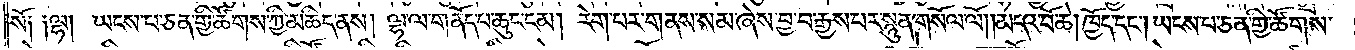སོ༑ ༑ལྷ། ཡངས་པ་ཅན་གྱི་ཚོགས་ཀྱི་མཆིད་ནས། ལྷ་ལ་གནོད་པ་ཆུང་ངམ། རེག་པར་གནས་སམ་ཞེས་བྱ་བ་རྒྱས་པར་སྙུན་གསོལ་ལོ། །མདའ་བོ་ཆེ། ཁྱོད་དང༌། ཡངས་པ་ཅན་གྱི་ཚོགས་
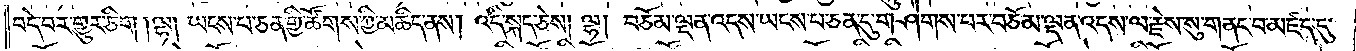བདེ་བར་གྱུར་ཅིག །ལྷ། ཡངས་པ་ཅན་གྱི་ཚོགས་ཀྱི་མཆིད་ནས། འདི་སྐད་ཅེས། ལྷ། བཅོམ་ལྡན་འདས་ཡངས་པ་ཅན་དུ་གཤེགས་པར་བཅོམ་ལྡན་འདས་ལ་རྗེས་སུ་གནང་བ་མཛད་དུ་
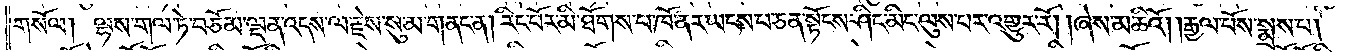གསོལ། ལྷས་གལ་ཏེ་བཅོམ་ལྡན་འདས་ལ་རྗེས་སུ་མ་གནང་ན། རིང་པོར་མི་ཐོགས་པ་ཁོ་ནར་ཡངས་པ་ཅན་སྟོངས་ཤིང་མིང་ལུས་པར་འགྱུར་རོ། །ཞེས་མཆིའོ། །རྒྱལ་པོས་སྨྲས་པ།
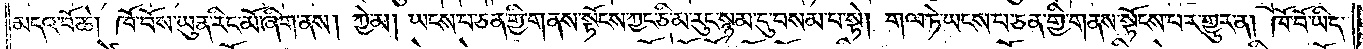མདའ་བོ་ཆེ། ཁོ་བོས་ཡུན་རིང་མོ་ཞིག་ནས། ཀྱེ་མ། ཡངས་པ་ཅན་གྱི་གནས་སྟོངས་ཀྱང་ཅི་མ་རུང་སྙམ་དུ་བསམ་པ་སྟེ། གལ་ཏེ་ཡངས་པ་ཅན་གྱི་གནས་སྟོངས་པར་གྱུར་ན། ཁོ་བོ་ཡིད་
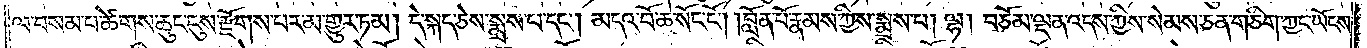ལ་བསམ་པ་ཚེགས་ཆུང་ངུས་རྫོགས་པར་མ་གྱུར་ཏམ། དེ་སྐད་ཅེས་སྨྲས་པ་དང༌། མདའ་བོ་ཆེ་སོང་ངོ༌། །བློན་པོ་རྣམས་ཀྱིས་སྨྲས་པ། ལྷ། བཅོམ་ལྡན་འདས་ཀྱིས་སེམས་ཅན་གཅིག་ཀྱང་ཡངས་
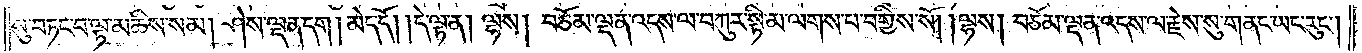སུ་བཏང་བ་ལྟ་མཆིས་སམ། ཤེས་ལྡན་དག། མེད་དོ། །དེ་ལྟ་ན། ལྷས། བཅོམ་ལྡན་འདས་ལ་བཀུར་སྟི་མ་ལགས་པ་བགྱིས་སོ། །ལྷས། བཅོམ་ལྡན་འདས་ལ་རྗེས་སུ་གནང་ཡང་རུང༌།
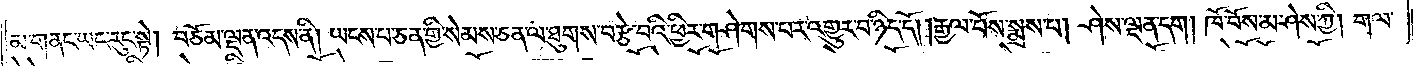མ་གནང་ཡང་རུང་སྟེ། བཅོམ་ལྡན་འདས་ནི། ཡངས་པ་ཅན་གྱི་སེམས་ཅན་ལ་ཐུགས་བརྩེ་བའི་ཕྱིར་གཤེགས་པར་འགྱུར་བ་ཉིད་དོ། །རྒྱལ་པོས་སྨྲས་པ། ཤེས་ལྡན་དག། ཁོ་བོས་མ་ཤེས་ཀྱི། གལ་
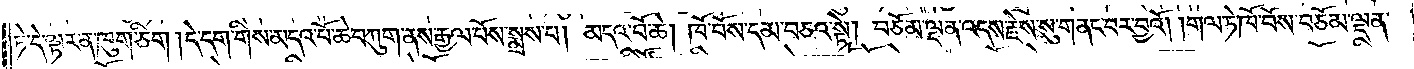ཏེ་དེ་ལྟར་ན་ཁུག་ཅིག །དེ་དག་གིས་མདའ་བོ་ཆེ་བཀུག་ནས་རྒྱལ་པོ་སྨྲས་པ། མདའ་བོ་ཆེ། ཁོ་བོས་དམ་བཅའ་སྟེ། བཅོམ་ལྡན་འདས་རྗེས་སུ་གནང་བར་བྱའོ། །གལ་ཏེ་ཁོ་བོས་བཅོམ་ལྡན་
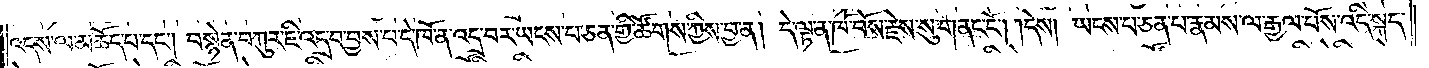འདས་ལ་མཆོད་པ་དང༌། བསྙེན་བཀུར་ཇི་འདྲ་བ་བྱས་པ་དེ་ཁོ་ན་འདྲ་བར་ཡངས་པ་ཅན་གྱི་ཚོགས་ཀྱི་བྱ་ན། དེ་ལྟ་ན་ཁོ་བོས་རྗེས་སུ་གནང་ངོ༌། །དེས། ཡངས་པ་ཅན་རྣམས་ལ་རྒྱལ་པོས་འདི་སྐད་
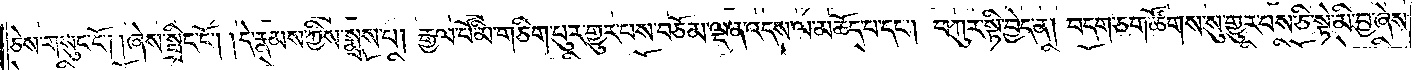ཅེས་གསུང་ངོ༌། །ཞེས་སྤྲིང་ངོ༌། །དེ་རྣམས་ཀྱིས་སྨྲས་པ། རྒྱལ་པོ་མི་གཅིག་པུར་གྱུར་པས་བཅོམ་ལྡན་འདས་ལ་མཆོད་པ་དང༌། བཀུར་སྟི་བྱེད་ན། བདག་ཅག་ཚོགས་སུ་གྱུར་པས་ཅི་སྟེ་མི་བྱ་ཞེས་
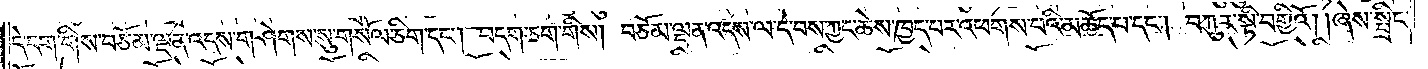དེ་དག་གིས་བཅོམ་ལྡན་འདས་གཤེགས་སུ་གསོལ་ཅིག་དང༌། བདག་ཅག་གིས། བཅོམ་ལྡན་འདས་ལ་དེ་བས་ཀྱང་ཆེས་ཁྱད་པར་འཕགས་པའི་མཆོད་པ་དང༌། བཀུར་སྟི་བགྱིའོ། །ཞེས་སྤྲིང་
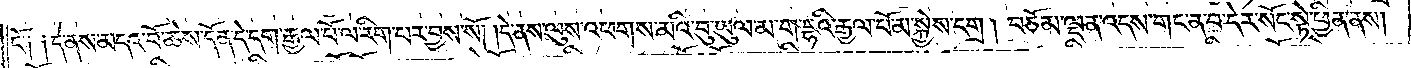ངོ་༑ ༑དེ་ནས་མདའ་བོ་ཆེས་དོན་དེ་དག་རྒྱལ་པོ་ལ་རིག་པར་བྱས་སོ། །དེ་ནས་ལུས་འཕགས་མའི་བུ་ཡུལ་མ་ག་དྷའི་རྒྱལ་པོ་མ་སྐྱེས་དགྲ། བཅོམ་ལྡན་འདས་གང་ན་བ་དེར་སོང་སྟེ་ཕྱིན་ནས།
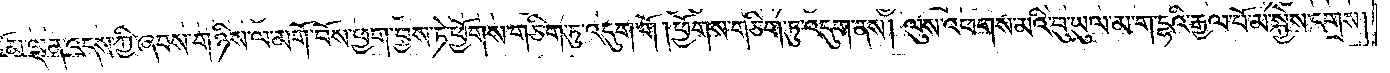བཅོམ་ལྡན་འདས་ཀྱི་ཞབས་གཉིས་ལ་མགོ་བོས་ཕྱག་བྱས་ཏེ་ཕྱོགས་གཅིག་ཏུ་འདུག་གོ །ཕྱོགས་གཅིག་ཏུ་འདུག་ནས། ལུས་འཕགས་མའི་བུ་ཡུལ་མ་ག་དྷའི་རྒྱལ་པོ་མ་སྐྱེས་དགྲས།
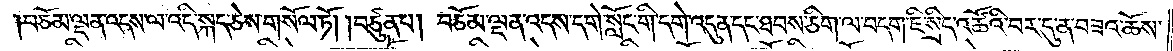བཅོམ་ལྡན་འདས་ལ་འདི་སྐད་ཅེས་གསོལ་ཏོ། །བཙུན་པ། བཅོམ་ལྡན་འདས་དགེ་སློང་གི་དགེ་འདུན་དང་ཐབས་ཅིག་ལ་བདག་ཇི་སྲིད་འཚོའི་བར་དུ་ན་བཟའ་ཆོས་
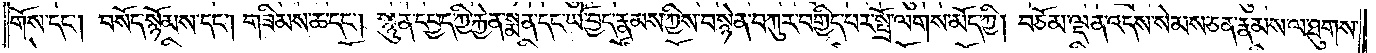གོས་དང༌། བསོད་སྙོམས་དང༌། གཟིམས་ཆ་དང༌། སྙུན་དཔྱད་ཀྱི་རྐྱེན་སྨན་དང་ཡོ་བྱད་རྣམས་ཀྱིས་བསྙེན་བཀུར་བགྱིད་པར་སྤྲོ་ལགས་མོད་ཀྱི། བཅོམ་ལྡན་འདས་སེམས་ཅན་རྣམས་ལ་ཐུགས་
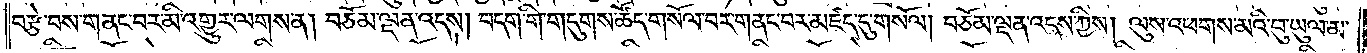བརྩེ་བས་གནང་བར་མི་འགྱུར་ལགས་ན། བཅོམ་ལྡན་འདས། བདག་གི་གདུགས་ཚོད་གསོལ་བར་གནང་བར་མཛད་དུ་གསོལ། བཅོམ་ལྡན་འདས་ཀྱིས། ལུས་འཕགས་མའི་བུ་ཡུལ་མ་
